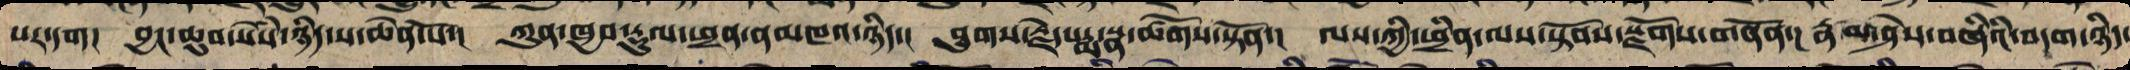པར་དག། བྱང་ཆུབ་སེཾས་ཉིད་ས་ཆེན་པོ་། ཀུན་ཁྱབ་རྡུལ་ཕྲན་ནམཁའ་ཉིད་། ཐུགས་རྗེས་པདྨ་སྣ་ཚོགས་སྟོན་། ལས་ཀྱི་ཕྲིན་ལས་སྟོབས་སྫོགས་གནོན་། རྣམ་ཤེས་བཞིའི་བདག་ཉིད་
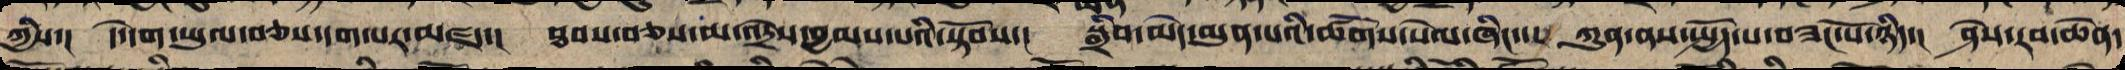ཀྱིས་། དེ་དག་ཡུལ་བཅས་དག་པར་མཛད་། ཐབས་བཅས་མ་འདྲེས་བྱམས་པའི་སྟོབས་། སྒྲིབ་མེད་མུན་པའི་ཚོགས་སེལ་ཞིང་་། ཀུན་ནས་སྤྱོད་པ་བཟང་པོ་ཉིད་། ཤེས་རབ་ཆེན་
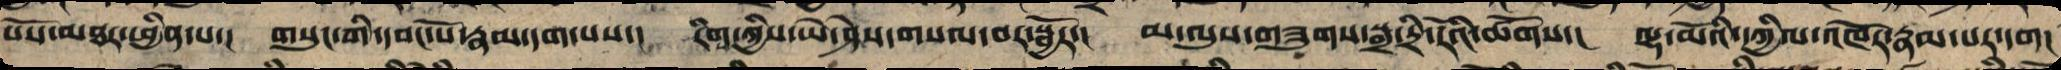པོ་མཐར་ཕྱིན་པ་། གསུང་གི་དབང་པོ་རྣམ་དག་པས་། རིགས་ཀྱི་ཡེ་ཤེས་གསལ་བར་སྦྱོར་། མ་ལུས་གཟུགས་སྒྲ་དྲི་རོའི་ཚོགས་། ལྷ་མོའི་དཀྱིལ་འཁོར་རྣམ་པར་དག།
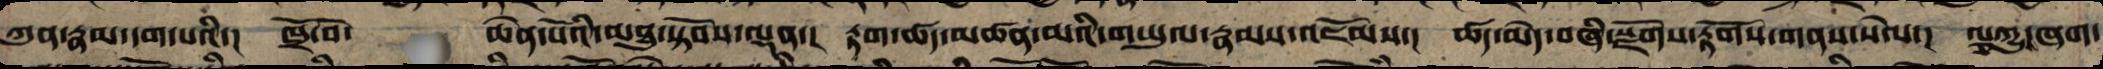ཀུན་རྣམ་དག་པའི་། ཁྲོ་བོ་ཆེན་པོའི་མཐུ་སྟོབས་ལྡན་། རྟག་ཚད་མཚན་མའི་གཡུལ་རྣམས་འཇོམས་། ཚད་མེད་བཞི་སྫོགས་རྟོགས་གནས་སེལ་། ལྕཀྱུ་ཞག་
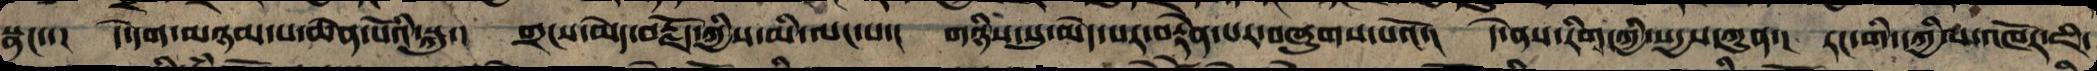སྣང་་། དེ་དག་་མཉམ་པ་ཆེན་པོའི་སྐུ་། གྲངས་མེད་བརྗོད་ཀྱིས་མི་ལང་བ་། གཉིས་སུ་མེད་པར་བརྟེན་པར་བཞུགས་པའོ་། དེ་ནས་རིགས་ཀྱི་སདྱས་ཀུན་། རང་གི་དཀྱིལ་འཁོར་ཇི་
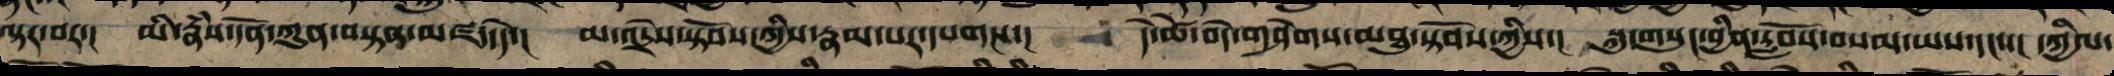ལྟ་བར་། མི་རྣཾས་དོན་ཀུན་བསྟན་མཛད་དེ་། མ་འདྲེས་སྟོབས་ཀྱིས་རྣམ་པར་དཔགས་། དེ་ཚེ་བདེ་གཤེགས་མཐུ་སྟོབས་ཀྱིས་། སྐུ་གསུང་བྱིན་རློབས་བསམ་ཡས་དང་་། དཀྱིལ་
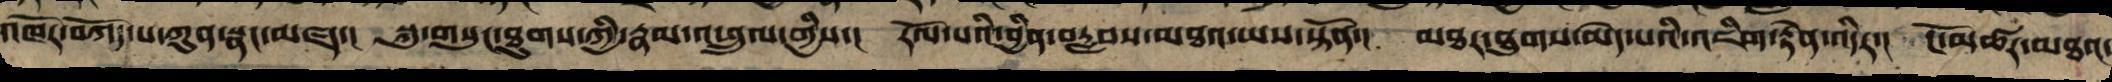འཁོར་བཀོད་པ་ཀུན་སྣང་མཛད་། སྐུ་གསུང་ཐུགས་ཀྱི་རྣམ་འཕྲུལ་གྱིས་། རོལ་པའི་བྱིན་བརླབས་མཐའ་ཡས་སྟོན་། མཐར་ཐུག་མེད་པའི་འཇིག་རྟེན་འདིར་། ངོ་མཚར་མཐའ་
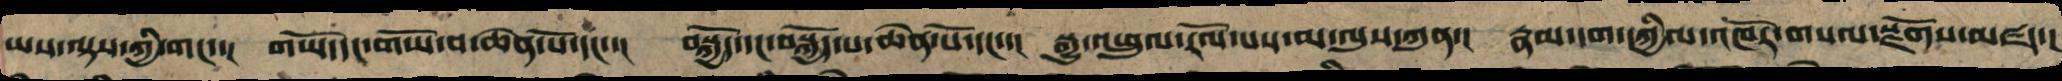ཡས་ལྟས་ཀྱིས་གང་་། གཡོ་དང་གཡོ་བ་ཆེན་པོ་དང་་། བསྐྱོད་དང་བསྐྱོད་པ་ཆེན་པོ་ཡི་། སྒྱུ་འཕྲུལ་རོལ་པས་མ་ལུས་ཀུན་། རྣམ་དག་དཀྱིལ་འཁོར་གསལ་སྫོགས་མཛད་།
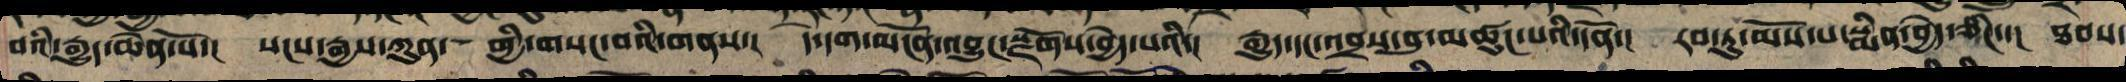བའི་རྒྱུད་ཆེན་པོ་། སངས་རྒྱས་ཀུན་གྱི་གསང་བའི་གནས་། དེ་དག་མངོན་འབྱུང་སྫོགས་བྱེད་པའི་། རྒྱུ་དང་འབྲས་བུ་མཚུངས་པའི་དོན་། རབ་ཏུ་མོས་པ་སྨིན་བྱེད་ཅིང་་། ཐབས་
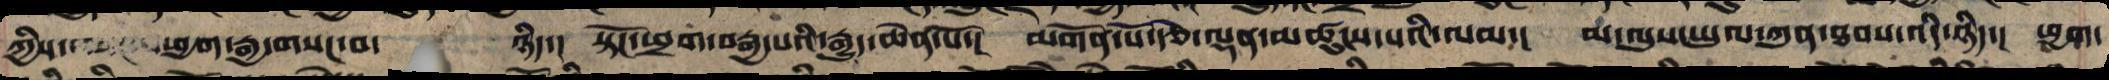ཀྱིས་ཕྱག་རྒྱ་གསང་བ་ཉིད་། སྟོང་ཕྲག་བརྒྱ་པའི་རྒྱུད་ཆེན་པོ་། མགོན་པོ་བརྩེ་ལྡན་མཚུངས་པའི་ལམ་། མ་ལུས་ཡུལ་ཀུན་ཐབས་འདི་ཉིད་། ཕྱག་
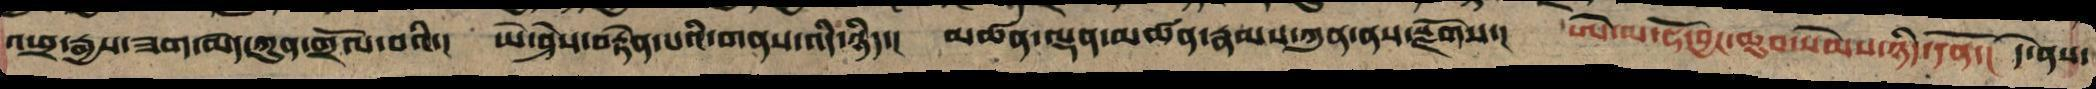ཕྲ་རྒྱས་ཟག་མེད་ཀུན་གྲོལ་བའི་། ཡེ་ཤེས་བརྟེན་པའི་གནས་འདི་ཉིད་། མཚན་ལྡན་མཚན་རྣམས་ཀུན་ནས་སྫོགས་། ཨེ་མ་ཧོ་བྱང་ཆུབ་སེམས་ཉིད་དོན་། དེ་ནས་
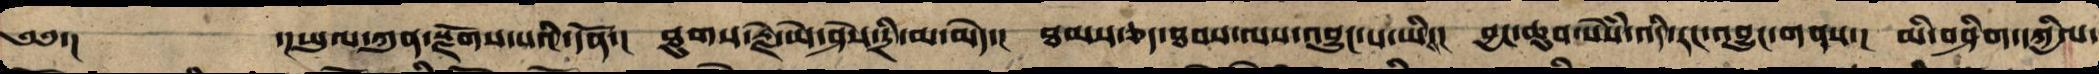༄༅་། ་།ཡུལ་ཀུན་སྫོགས་པའི་དོན་། ཐུགས་རྗེ་ཡེ་ཤེས་དྲི་མ་མེད་། ཐམས་ཅད་ཐབས་ལས་འབྱུང་བ་ཡིས་། བྱང་ཆུབ་སེཾས་འདི་རང་འབྱུང་གནས་། མི་ཤིགས་དཀྱིལ་
